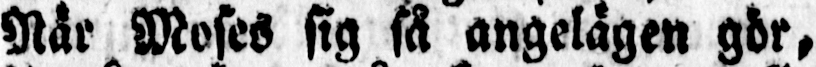När Moses sig så angelägen gör,
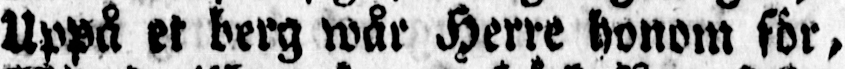Uppå et berg wår Herre honom för,
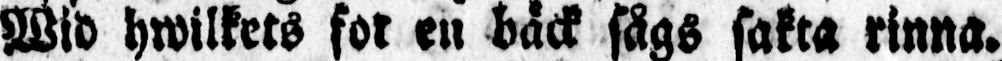Wid hwilkets fot en bäck sågs sakta rinna.
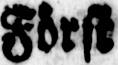Först
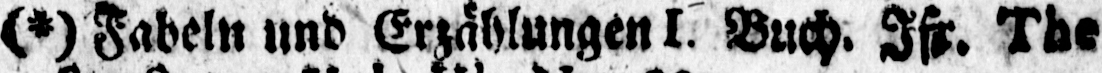(*) Fabeln und Erzählungen I. Buch. Ifr. The
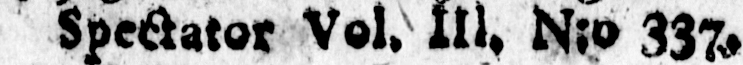Spectator Vol. III. N:o 337.
